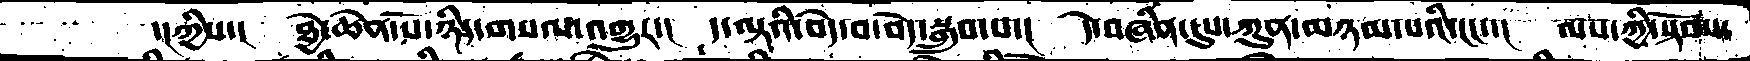་།ཀྱིས་།   ཐྱེ་ཆེན་པོོ་ཉིད་གསལ་འགྱུར་།    ད་ལྟའི་བདེ་བ་བདེ་སྒྲུབ་པ་།    དེ་བཞིན་དུས་ཀུན་མཉམ་པའི་ངང་་།   ལས་ཀྱི་སྟོབས་
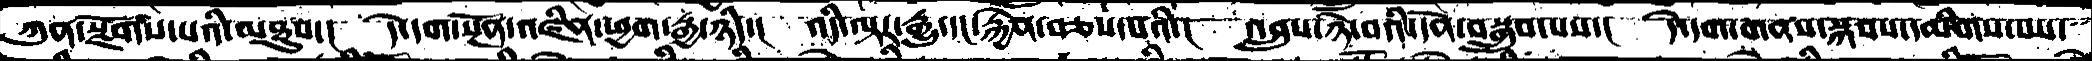ཀུན་སྫོགས་པའི་མཐུས་།   དེ་དག་སྔོན་འཛིན་ཕྱག་རྒྱ་ཉིད་།   འདི་ལྟར་རྒྱུ་དང་རྐྱེན་བཅས་པའི་།   འབྲུས་ཉེ་བའི་དོན་བསྒྲུབ་པས་།    དེ་དག་གནས་སྐབས་དམིགས་པས་
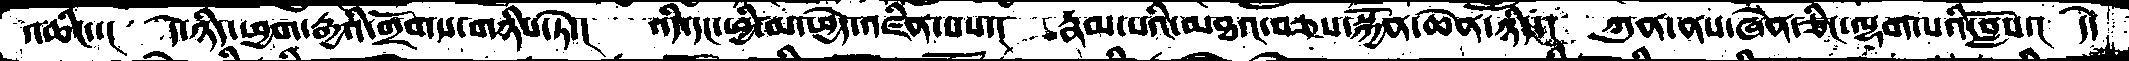འཆིང་་།   དེ་ཉིད་ཕྱག་རྒྱའི་གྲོགས་གཉིས་ཏེ་།    འདི་དང་ཕྱི་མ་ཕྱེད་འཛིན་པས་།    རྣམ་པའི་མཐའ་བཅས་སྐྱོན་ཆེན་ཉིད་།   ཀུན་ནས་ཞེན་ཅིང་ལྷག་པའི་བློས་།   དེ་
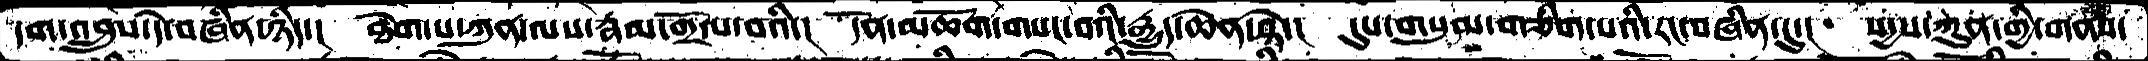དག་འབྲུས་དེ་བཞིན་ཉིད་།   ཐེག་པ་ཀུན་ལས་རྣམ་གྲོལ་བའི་།  དོན་མཆོག་གསང་བའི་རྒྱུད་ཆེན་སྟེ་།   དུས་གསུམ་གཅིག་པའི་རང་བཞིན་དུ་།   སདྱས་ཀུན་གྱི་གནས་
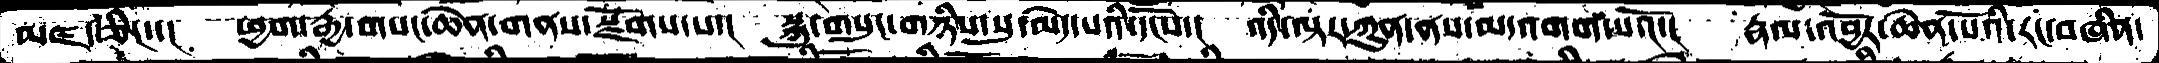མཛད་ཅིང་་།   ཕྱག་རྒྱ་གསང་ཆེན་གནས་སྫོགས་པ་།   སྐུ་གསུང་གཉིས་སུ་མེད་པའི་དངོས་།   འདི་ལྟར་ཀུན་ནས་མ་འགག་པའོ་།   རྣལ་འབྱོར་ཆེན་པོའི་རང་བཞིན་
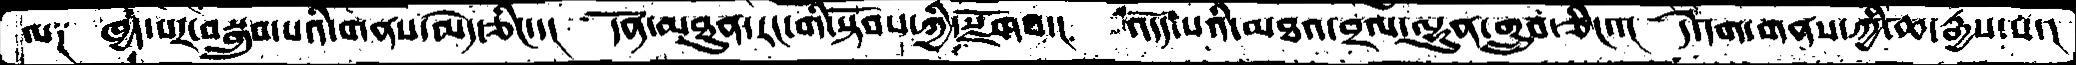ལ༑  ཁྱད་པར་བསྒྲུབ་པའི་གནས་མེད་ཅིང་་།  དོན་མཐུན་རང་གི་སྟོབས་ཀྱི་སྫོགས་།  འདོད་པའི་མཐའ་བྲལ་ལྷུན་གྲུབ་ཅིང་་།  དེ་དག་གནས་ཀྱི་ཆ་རྒྱས་པ་།
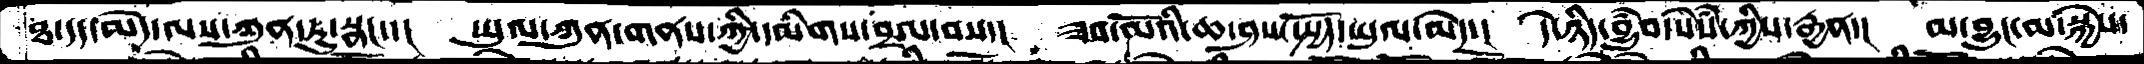ཐ་དད་མེད་ལས་ཀུན་ཏུ་སྣང་་།  ཡུལ་ཀུན་གནས་ཀྱི་དམིགས་བྲལ་བས་།  ཟབ་མོའི་ཆ་ཤས་སྤྱོད་ཡུལ་མེད་།  དེ་ཉིད་བྱུཾབ་སེཾས་ཀྱིས་རྒྱན་།  མ་བྱུང་མ་སྐྱེས་
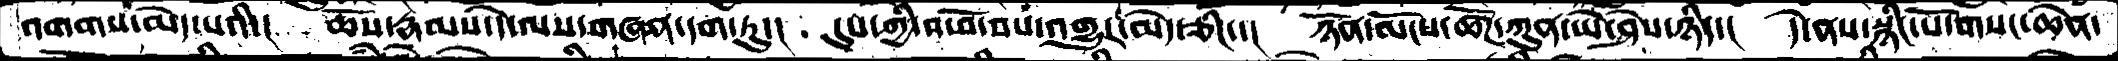འགགས་མེད་པའི་།  ཆོས་རྣམས་དེ་ལས་གཞན་དག་ཏུ་།  དུས་ཀྱི་འཕོ་བས་འགྱུར་མེད་ཅིང་་།  ཉོན་མོངས་ཚོཌ་ཀུན་ཡེ་ཤེས་ཉིད་།  དེ་ནས་སྙིང་པོ་གསང་ཆེན་
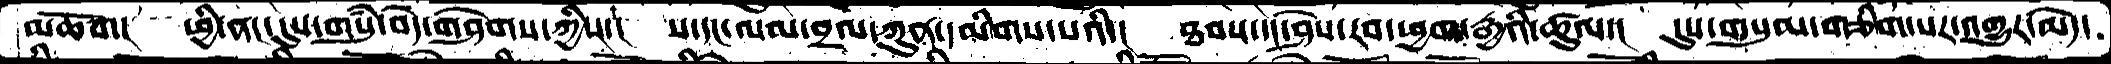མཆོག།  ཕྱི་ནང་དུས་གསུཾ་བདེ་གཤེགས་ཀྱིས་།  ས་དང་ལམ་བྲལ་ཀུན་དམིགས་པའི་།  ཐབས་དང་ཤེས་རབ་ཕྱག་རྒྱའི་ཚུལ་།  དུས་གསུམ་གཅིག་པར་འགྱུར་མེད་
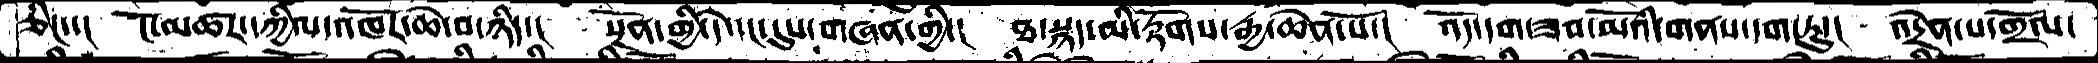ཅིང་་།  ངོ་མཚར་དཀྱིལ་འཁོར་ཆེ་བ་ཉིད་།  སྔོན་གྱི་དེ་དང་དུས་གཞན་གྱི་།  ཐ་སྙད་མི་རྟོགས་རྒྱ་ཆེན་པོ་།  འོད་དག་ཟབ་མོའི་གནས་དག་ཏུ་།  འདྲེན་པ་གྲོལ་
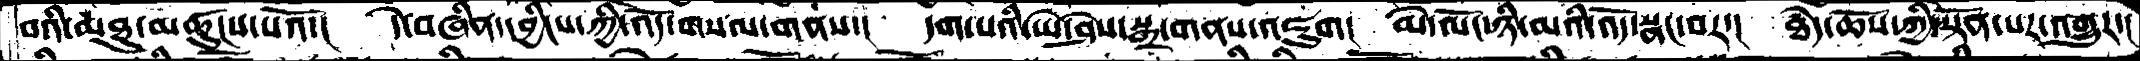བའི་མཐུ་མཚུངས་པའོ་།  དེ་བཞིན་དབྱིངས་ཀྱི་འོད་གསལ་གནས་།  དག་པའི་ཡེ་ཤེས་སྒྲ་གནས་འཇུག།  མེ་ལོང་ཉི་མའི་འོད་སྣང་བར་། ཐཾད་ཆོས་ཀྱི་སྟོན་པར་འགྱུར་།
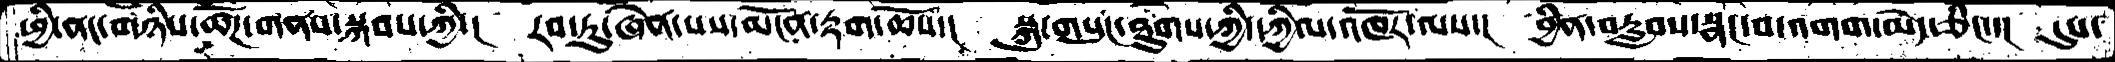ཕྱི་ནང་གཉིས་ཚོཌ་གནས་སྐབས་ཀྱི་།  རབ་ཏུ་ཞེན་པས་མངོན་རྟག་ཆོས་།  སྐུ་གསུང་ཐུགས་ཀྱི་དཀྱིལ་འཁོར་ལས་།  བྱིན་བརླབས་སྣང་བ་འགག་མེད་ཅིང་་།  དུས་
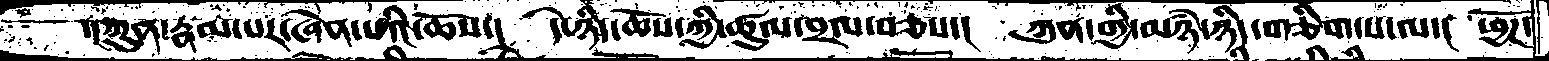་།ཀུན་རྣམ་པར་ཞེན་པའི་ཆོས་།  དེ་ཉིད་ཆོས་ཀྱི་ཚུལ་བྲལ་བཅས་།  ཀུན་གྱི་མཉཾ་ཉིད་གཅིག་པ་ལ་།  ཕྱོཌ་
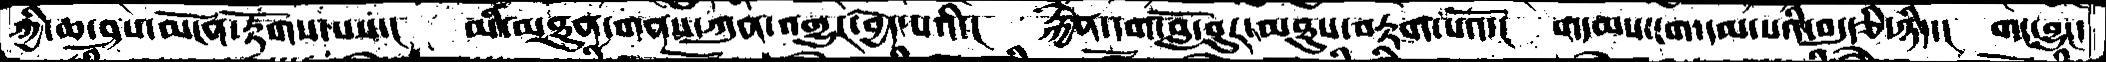ཀྱི་ཆ་ཤས་མངོན་རྟོགས་པས་།  མི་མཐུན་གནས་ཀུན་འགྱུར་བྱེད་པའི་།  རྐྱེན་དག་བློ་བུར་མཐུས་བརྟག་པའོ་།  གདམས་ངག་དམ་པའི་བདུད་རྩི་ཉིད་།  གང་བྱུང་
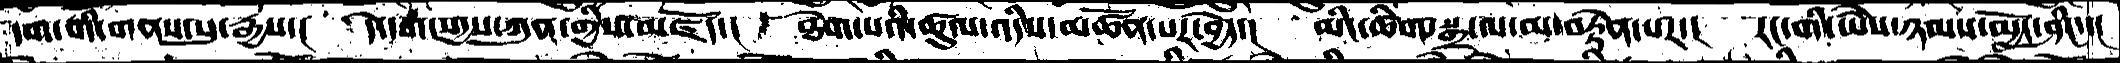དག་གི་གནས་སུ་རྒྱས་།  དེ་དག་སདྱས་ཀུན་གྱིས་མཛདོ་། ཐེག་པའི་ཚུལ་འདིས་མཚོན་པར་བྱེད་།  མིང་ཚིག་སྒྲ་ལ་མ་བརྟེན་པར་།  རང་གི་ཡཻས་ཉམས་མྱོང་ཤིང་་།
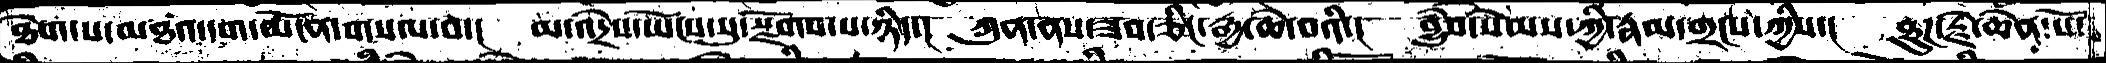ཐེག་པ་མཐའ་དག་མངོན་གསལ་བ་།  མ་འདྲེས་ཡོངས་སུ་སྫོགས་པ་ཉིད་།  ཀུན་ནས་ཟབ་ཅིང་རྒྱ་ཆེ་བའི་།  བྱུཾབ་སེམས་ཀྱི་རྣམ་གྲངས་ཀྱིས་།  ཐུཌ་རྗེ་ཆེན་པོ་
